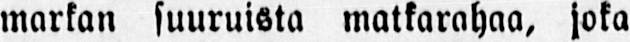markan suuruista matkarahaa, joka
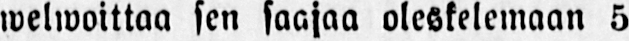welwoittaa sen saajaa oleskelemaan 5
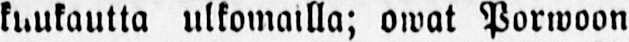kuukautta ulkomailla; owat Porwoon
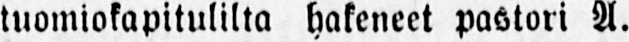tuomiokapitulilta hakeneet pastori A.
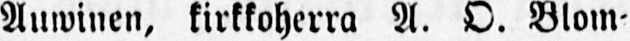Auwinen, kirkkoherra A. O. Blom-
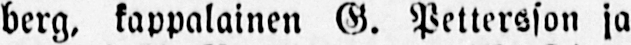berg, kappalainen G. Pettersson ja
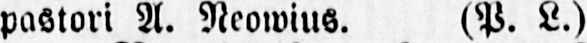pastori A. Neowius. (P. L.)
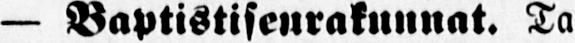— Baptistiseurakunnat. Ta-
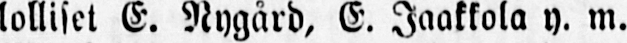lolliset E. Nygård, E. Jaakkola y. m.
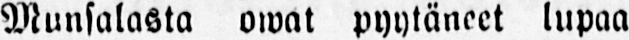Munsalasta owat pyytäneet lupaa
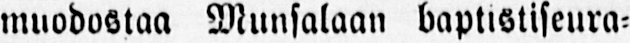muodostaa Munsalaan baptistiseura-
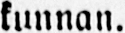kunnan.
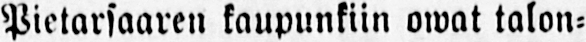Pietarsaaren kaupunkiin owat talon-
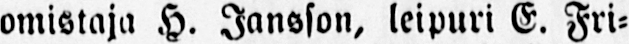omistaja H. Jansson, leipuri E. Fri-
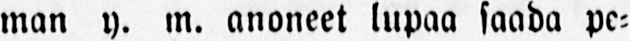man y. m. anoneet lupaa saada pe-
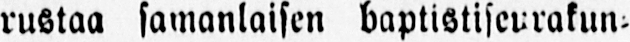rustaa samanlaisen baptistiseurakun-
